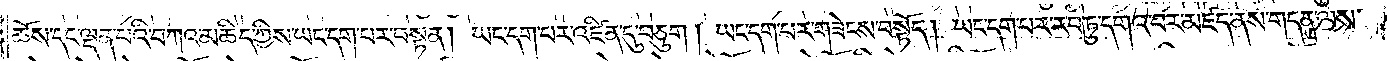ཆོས་དང་ལྡན་པའི་བཀའ་མཆིད་ཀྱིས་ཡང་དག་པར་བསྟན། ཡང་དག་པར་འཛིན་དུ་བཅུག །ཡང་དག་པར་གཟེངས་བསྟོད། ཡང་དག་པར་རབ་ཏུ་དགའ་བར་མཛད་ནས་གདན་ལས་
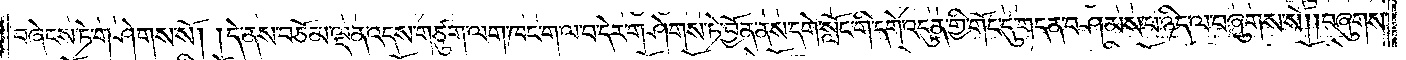བཞེངས་ཏེ་གཤེགས་སོ། །དེ་ནས་བཅོམ་ལྡན་འདས་གཙུག་ལག་ཁང་ག་ལ་བ་དེར་གཤེགས་ཏེ་བྱོན་ནས་དགེ་སློང་གི་དགེ་འདུན་གྱི་གོང་དུ་གདན་བཤམས་པ་ཉིད་ལ་བཞུགས་སོ༎བཞུགས་
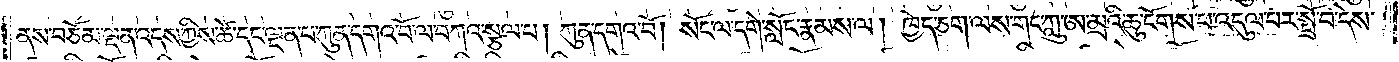ནས་བཅོམ་ལྡན་འདས་ཀྱིས་ཚེ་དང་ལྡན་པ་ཀུན་དགའ་བོ་ལ་བཀའ་སྩལ་པ། ཀུན་དགའ་བོ། སོང་ལ་དགེ་སློང་རྣམས་ལ། ཁྱེད་ཅག་ལས་གང་ཀླུ་ཨ་མྲའི་ཆུ་ངོགས་པ་འདུལ་བར་སྤྲོ་བ་དེས་
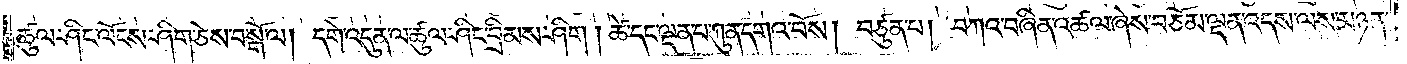ཚུལ་ཤིང་ལོངས་ཤིག་ཅེས་བསྒོ་ལ། དགེ་འདུན་ལ་ཚུལ་ཤིང་བྲིམས་ཤིག །ཚེ་དང་ལྡན་པ་ཀུན་དགའ་བོས། བཙུན་པ། བཀའ་བཞིན་འཚལ་ཞེས་བཅོམ་ལྡན་འདས་ལས་མཉན་
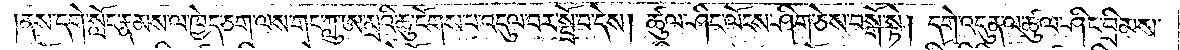ནས་དགེ་སློང་རྣམས་ལ་ཁྱེད་ཅག་ལས་གང་ཀླུ་ཨ་མྲའི་ཆུ་ངོགས་པ་འདུལ་བར་སྤྲོ་བ་དེས། ཚུལ་ཤིང་ལོངས་ཤིག་ཅེས་བསྒོ་སྟེ། དགེ་འདུན་ལ་ཚུལ་ཤིང་བྲིམས་
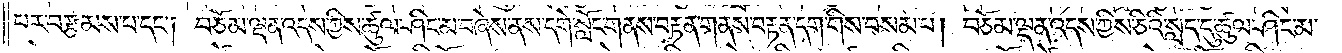པར་བརྩམས་པ་དང༌། བཅོམ་ལྡན་འདས་ཀྱིས་ཚུལ་ཤིང་མ་བཞེས་ནས་དགེ་སློང་གནས་བརྟན་གནས་བརྟན་དག་གིས་བསམ་པ། བཅོམ་ལྡན་འདས་ཀྱིས་ཅིའི་སླད་དུ་ཚུལ་ཤིང་མ་
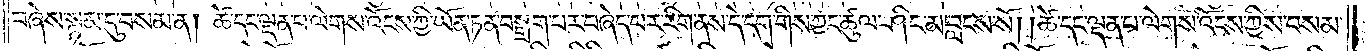བཞེས་སྙམ་དུ་བསམ་ན། ཚེ་དང་ལྡན་པ་ལེགས་འོངས་ཀྱི་ཡོན་ཏན་བསྒྲག་པར་བཞེད་པར་རིག་ནས་དེ་དག་གིས་ཀྱང་ཚུལ་ཤིང་མ་བླངས་སོ། །ཚེ་དང་ལྡན་པ་ལེགས་འོངས་ཀྱིས་བསམ་
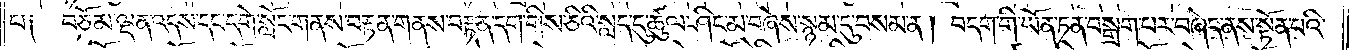པ༑ བཅོམ་ལྡན་འདས་དང་དགེ་སློང་གནས་བརྟན་གནས་བརྟན་དག་གིས་ཅིའི་སླད་དུ་ཚུལ་ཤིང་མ་བཞེས་སྙམ་དུ་བསམ་ན། བདག་གི་ཡོན་ཏན་བསྒྲག་པར་བཞེད་ནས་སྟོན་པའི་
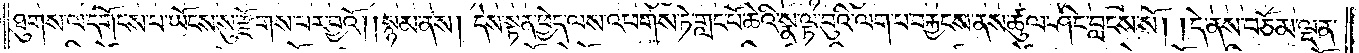ཐུགས་ལ་དགོངས་པ་ཡོངས་སུ་རྫོགས་པར་བྱའོ། །སྙམ་ནས། དེས་སྟན་ཕྱེད་ལས་འཕགས་ཏེ་གླང་པོ་ཆེའི་སྣ་ལྟ་བུའི་ལག་པ་བརྐྱངས་ནས་ཚུལ་ཤིང་བླངས་སོ། །དེ་ནས་བཅོམ་ལྡན་
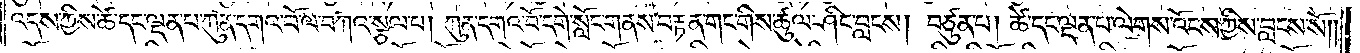འདས་ཀྱིས་ཚེ་དང་ལྡན་པ་ཀུན་དགའ་བོ་ལ་བཀའ་སྩལ་པ། ཀུན་དགའ་པོ་དགེ་སློང་གནས་བརྟན་གང་གིས་ཚུལ་ཤིང་བླངས། བཙུན་པ། ཚེ་དང་ལྡན་པ་ལེགས་འོངས་ཀྱིས་བླངས་སོ། །
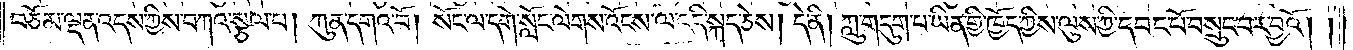བཅོམ་ལྡན་འདས་ཀྱིས་བཀའ་སྩལ་པ། ཀུན་དགའ་བོ། སོང་ལ་དགེ་སློང་ལེགས་འོངས་ལ་འདི་སྐད་ཅེས། དེ་ནི། ཀླུ་གདུག་པ་ཡིན་གྱི་ཁྱོད་ཀྱིས་ལུས་ཀྱི་དབང་པོ་བསྲུང་བར་བྱའོ། །
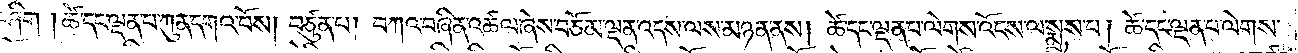ཤིག །ཚེ་དང་ལྡན་པ་ཀུན་དགའ་བོས། བཙུན་པ། བཀའ་བཞིན་འཚལ་ཞེས་བཅོམ་ལྡན་འདས་ལས་མཉན་ནས། ཚེ་དང་ལྡན་པ་ལེགས་འོངས་ལ་སྨྲས་པ། ཚེ་དང་ལྡན་པ་ལེགས་
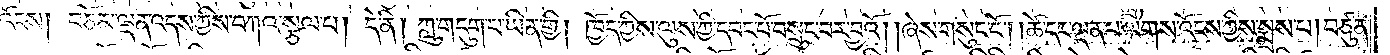འོངས། བཅོམ་ལྡན་འདས་ཀྱིས་བཀའ་སྩལ་པ། དེ་ནི། ཀླུ་གདུག་པ་ཡིན་གྱི། ཁྱོད་ཀྱིས་ལུས་ཀྱི་དབང་པོ་བསྲུང་བར་བྱའོ། །ཞེས་གསུང་ངོ༌། །ཚེ་དང་ལྡན་པ་ལེགས་འོངས་ཀྱིས་སྨྲས་པ། བཙུན་
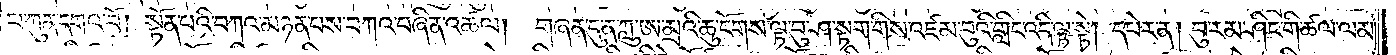པ་ཀུན་དགའ་བོ། སྟོན་པའི་བཀའ་མཉན་པས་བཀའ་བཞིན་འཚལ། གཞན་དུ་ན་ཀླུ་ཨ་མྲའི་ཆུ་ངོགས་ལྟ་བུ་ཤ་སྟག་གིས་འཛམ་བུའི་གླིང་འདི་ལྟ་སྟེ། དཔེར་ན། བུ་རམ་ཤིང་གི་ཚལ་ལམ།
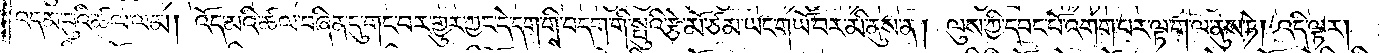འདམ་བུའི་ཚལ་ལམ། འོད་མའི་ཚལ་བཞིན་དུ་གང་བར་གྱུར་ཀྱང་དེ་དག་གིས་བདག་གི་སྤུའི་རྩེ་མོ་ཙམ་ཡང་གཡོ་བར་མི་ནུས་ན། ལུས་ཀྱི་དབང་པོ་འགག་པར་ལྟ་ག་ལ་ནུས་ཏེ། འདི་ལྟར།
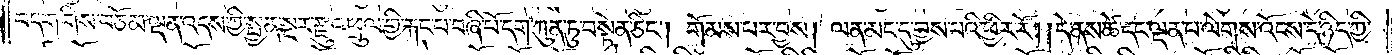བདག་གིས་བཅོམ་ལྡན་འདས་ཀྱི་སྤྱན་སྔར་རྫུ་འཕྲུལ་གྱི་རྐང་པ་བཞི་པོ་དག་ཀུན་ཏུ་བསྟེན་ཅིང༌། གོམས་པར་བྱས། ལན་མང་དུ་བྱས་པའི་ཕྱིར་རོ། །དེ་ནས་ཚེ་དང་ལྡན་པ་ལེགས་འོངས་དེ་ཉིད་ཀྱི་
